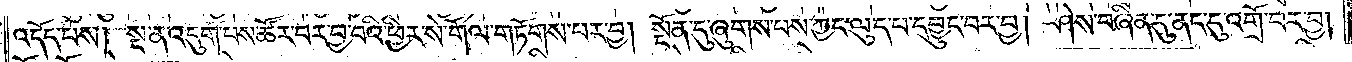འདོད་པས། སྔ་ན་འདུག་པས་ཚོར་བར་བྱ་བའི་ཕྱིར་སེ་གོལ་གཏོགས་པར་བྱ། སྔོན་དུ་ཞུགས་པས་ཀྱང་ལུད་པ་དབྱུང་བར་བྱ། ཤེས་བཞིན་དུ་ནང་དུ་འགྲོ་བར་བྱ།
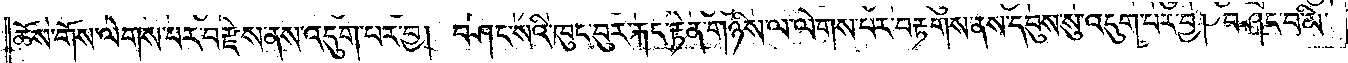ཆོས་གོས་ལེགས་པར་བརྫེས་ནས་འདུག་པར་བྱ། བཤང་སའི་ཁུང་བུར་རྐང་རྟེན་གཉིས་ལ་ལེགས་པར་བརྟགས་ནས་དབུས་སུ་འདུག་པར་བྱ། བཤང་བ་མི་
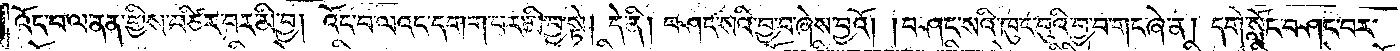འོང་བ་ལ་ནན་གྱིས་བཙིར་བར་མི་བྱ། འོང་བ་ལའང་དགག་པར་མི་བྱ་སྟེ། དེ་ནི། བཤང་སའི་བྱ་བ་ཞེས་བྱའོ། །བཤང་སའི་ཁུང་བུའི་བྱ་བ་གང་ཞེ་ན། དགེ་སློང་བཤང་བར་
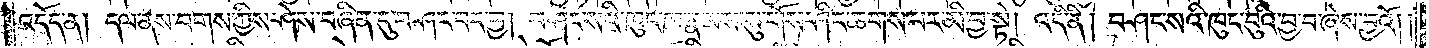འདོད་ན། དལ་ནས་བགས་ཀྱིས་ཤེས་བཞིན་དུ་བཤང་བར་བྱ། བཤང་སའི་ཁུང་ཁ་རྣམས་སུ་གོས་ཤིང་ཆགས་པར་མི་བྱ་སྟེ། འདི་ནི། བཤང་སའི་ཁུང་བུའི་བྱ་བ་ཞེས་བྱའོ།
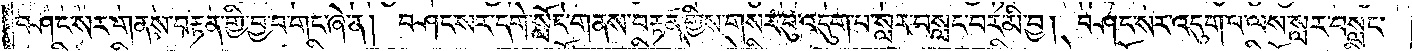བཤང་སར་གནས་བརྟན་གྱི་བྱ་བ་གང་ཞེ་ན། བཤང་སར་དགེ་སློང་གནས་བརྟན་གྱིས་གསར་བུ་འདུག་པ་སླར་བསླང་བར་མི་བྱ། བཤང་སར་འདུག་པ་ལས་སླར་བསླང་
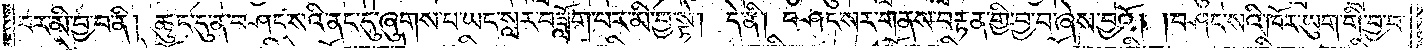བར་མི་བྱ་བ་ནི། ཆུང་དུ་ན་བཤང་སའི་ནང་དུ་ཞུགས་པ་ཡང་སླར་བཟློག་པར་མི་བྱ་སྟེ། དེ་ནི། བཤང་སར་གནས་བརྟན་གྱི་བྱ་བ་ཞེས་བྱའོ། །བཤང་སའི་ཁོར་ཡུག་གི་བྱ་བ་
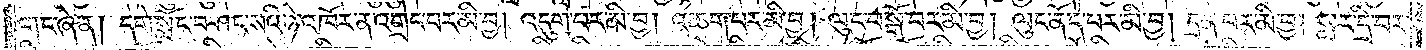གང་ཞེ་ན། དགེ་སློང་བཤང་སའི་ཉེ་འཁོར་ན་འགྲེང་བར་མི་བྱ། འདུག་པར་མི་བྱ། འཆག་པར་མི་བྱ། ལུང་བསྒོ་བར་མི་བྱ། ལུང་ནོད་པར་མི་བྱ། དྲན་པར་མི་བྱ། སླར་དྲི་བར་
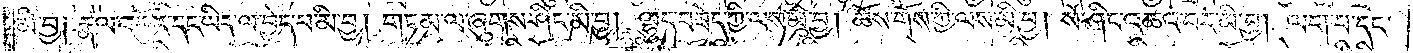མི་བྱ། རྣལ་འབྱོར་དང་ཡིད་ལ་བྱེད་པ་མི་བྱ། གཏམ་ལ་ཞུགས་ཤིང་མི་བྱ། ལྷུང་བཟེད་ཀྱི་ལས་མི་བྱ། ཆོས་གོས་ཀྱི་ལས་མི་བྱ། སོ་ཤིང་འཆའ་བར་མི་བྱ། ལག་པ་དང་
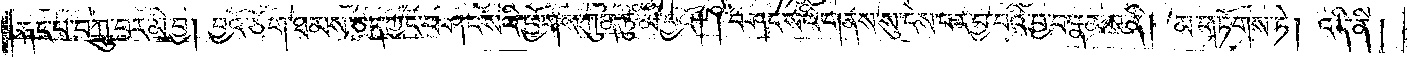རྐང་པ་བཀྲུ་བར་མི་བྱ། བྱའོ་ཅོག་ཐམས་ཅད་ཀྱང་བཤང་སའི་ཕྱོགས་ཀུན་ཏུ་མི་བྱའོ། །བཤང་སའི་གནས་སུ་ངེས་པར་བྱ་བའི་བྱ་བ་རྣམས་ནི། མ་གཏོགས་ཏེ། འདི་ནི།
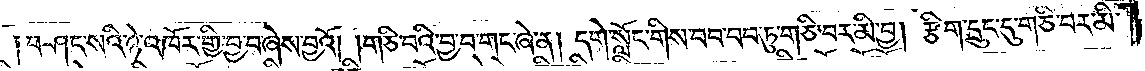བཤང་སའི་ཉེ་འཁོར་གྱི་བྱ་བ་ཞེས་བྱའོ། །གཅི་བའི་བྱ་བ་གང་ཞེ་ན། དགེ་སློང་གིས་བབ་བབ་ཏུ་གཅི་བར་མི་བྱ། རྩིག་དྲུང་དུ་གཅི་བར་མི་
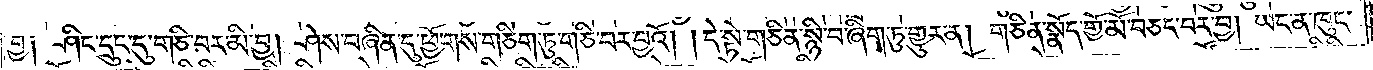བྱ། ཤིང་དྲུང་དུ་གཅི་བར་མི་བྱ། ཤེས་བཞིན་དུ་ཕྱོགས་གཅིག་ཏུ་གཅི་བར་བྱའོ། །དེ་སྟེ་གཅིན་སྙི་བ་ཞིག་ཏུ་གྱུར་ན། གཅིན་སྣོད་གྱོ་མོ་བཅང་བར་བྱ། ཡང་ན་ཁུང་
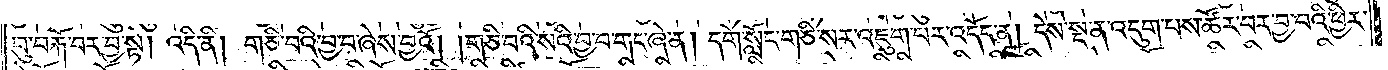བུ་བརྐོ་བར་བྱ་སྟེ། འདི་ནི། གཅི་བའི་བྱ་བ་ཞེས་བྱའོ། །གཅི་བའི་སའི་བྱ་བ་གང་ཞེ་ན། དགེ་སློང་གཅི་སར་འཇུག་པར་འདོད་ན། དེས་སྡ་ན་འདུག་པས་ཚོར་བར་བྱ་བའི་ཕྱིར་
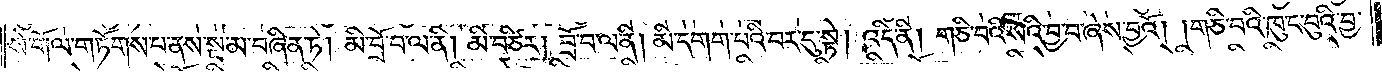སེ་གོལ་གཏོགས་པ་ནས་སྔ་མ་བཞིན་ཏེ། མི་བྲོ་བ་ལ་ནི། མི་བཙིར། བྲོ་བ་ལ་ནི། མི་དགག་པའི་བར་དུ་སྟེ། འདི་ནི། གཅི་བའི་སའི་བྱ་བ་ཞེས་བྱའོ། །གཅི་བའི་ཁུང་བུའི་བྱ་
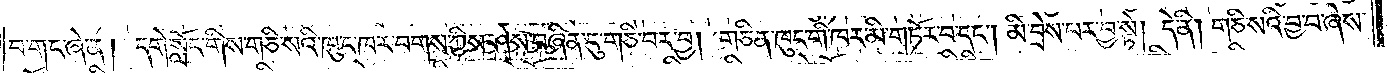བ་གང་ཞེ་ན། དགེ་སློང་གིས་གཅི་སའི་ཁུང་ཁར་བགས་ཀྱིས་ཤེས་བཞིན་དུ་གཅི་བར་བྱ། གཅིན་ཁུང་གི་ཁར་མི་གཏོར་བ་དང༌། མི་བྲེས་པར་བྱ་སྟེ། དེ་ནི། གཅི་སའི་བྱ་བ་ཞེས་
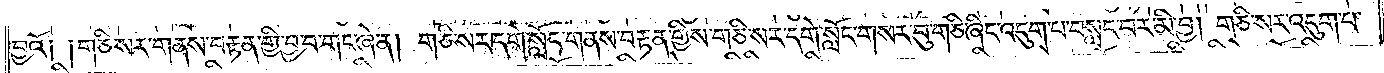བྱའོ། །གཅི་སར་གནས་བརྟན་གྱི་བྱ་བ་གང་ཞེ་ན། གཅི་སར་དགེ་སློང་གནས་བརྟན་གྱིས་གཅི་སར་དགེ་སློང་གསར་བུ་གཅི་ཞིང་འདུག་པ་བསླང་བར་མི་བྱ། གཅི་སར་འདུག་པ་
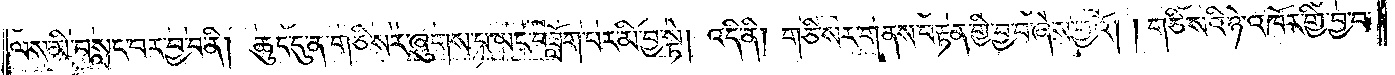ལས་མི་བསླང་བར་བྱ་བ་ནི། ཆུང་དུ་ན་གཅི་སར་ཞུགས་པ་ཡང་བཟློག་པར་མི་བྱ་སྟེ། འདི་ནི། གཅི་སར་གནས་བརྟན་གྱི་བྱ་བ་ཞེས་བྱའོ། །གཅི་སའི་ཉེ་འཁོར་གྱི་བྱ་བ་
